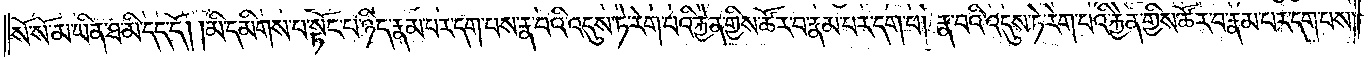སོ་སོ་མ་ཡིན་ཐ་མི་དད་དོ། །མི་དམིགས་པ་སྟོང་པ་ཉིད་རྣམ་པར་དག་པས་རྣ་བའི་འདུས་ཏེ་རེག་པའི་རྐྱེན་གྱིས་ཚོར་བ་རྣམ་པར་དག་པ། རྣ་བའི་འདུས་ཏེ་རེག་པའི་རྐྱེན་གྱིས་ཚོར་བ་རྣམ་པར་དག་པས་
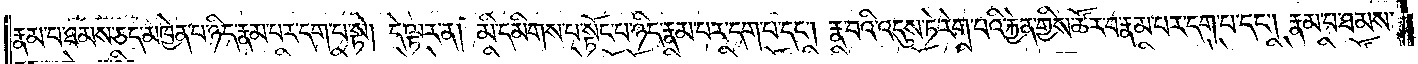རྣམ་པ་ཐམས་ཅད་མཁྱེན་པ་ཉིད་རྣམ་པར་དག་པ་སྟེ། དེ་ལྟར་ན། མི་དམིགས་པ་སྟོང་པ་ཉིད་རྣམ་པར་དག་པ་དང༌། རྣ་བའི་འདུས་ཏེ་རེག་པའི་རྐྱེན་གྱིས་ཚོར་བ་རྣམ་པར་དག་པ་དང༌། རྣམ་པ་ཐམས་
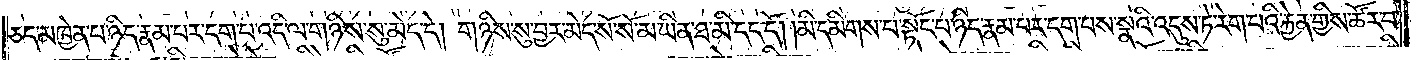ཅད་མཁྱེན་པ་ཉིད་རྣམ་པར་དག་པ་འདི་ལ་གཉིས་སུ་མེད་དེ། གཉིས་སུ་བྱར་མེད་སོ་སོ་མ་ཡིན་ཐ་མི་དད་དོ། །མི་དམིགས་པ་སྟོང་པ་ཉིད་རྣམ་པར་དག་པས་སྣའི་འདུས་ཏེ་རེག་པའི་རྐྱེན་གྱིས་ཚོར་བ་
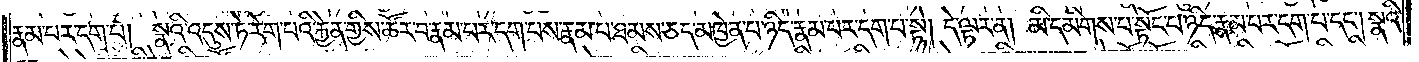རྣམ་པར་དག་པ། སྣའི་འདུས་ཏེ་རེག་པའི་རྐྱེན་གྱིས་ཚོར་བ་རྣམ་པར་དག་པས་རྣམ་པ་ཐམས་ཅད་མཁྱེན་པ་ཉིད་རྣམ་པར་དག་པ་སྟེ། དེ་ལྟར་ན། མི་དམིགས་པ་སྟོང་པ་ཉིད་རྣམ་པར་དག་པ་དང༌། སྣའི་
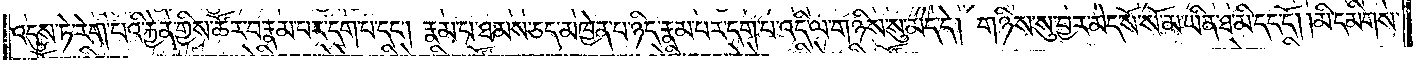འདུས་ཏེ་རེག་པའི་རྐྱེན་གྱིས་ཚོར་བ་རྣམ་པར་དག་པ་དང༌། རྣམ་པ་ཐམས་ཅད་མཁྱེན་པ་ཉིད་རྣམ་པར་དག་པ་འདི་ལ་གཉིས་སུ་མེད་དེ། གཉིས་སུ་བྱར་མེད་སོ་སོ་མ་ཡིན་ཐ་མི་དད་དོ། །མི་དམིགས་
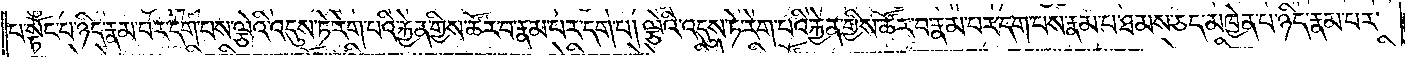པ་སྟོང་པ་ཉིད་རྣམ་པར་དག་པས་ལྕེའི་འདུས་ཏེ་རེག་པའི་རྐྱེན་གྱིས་ཚོར་བ་རྣམ་པར་དག་པ། ལྕེའི་འདུས་ཏེ་རེག་པའི་རྐྱེན་གྱིས་ཚོར་བ་རྣམ་པར་དག་པས་རྣམ་པ་ཐམས་ཅད་མཁྱེན་པ་ཉིད་རྣམ་པར་
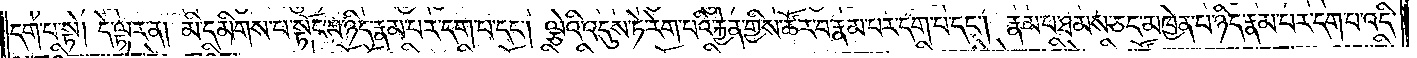དག་པ་སྟེ། དེ་ལྟར་ན། མི་དམིགས་པ་སྟོང་པ་ཉིད་རྣམ་པར་དག་པ་དང༌། ལྕེའི་འདུས་ཏེ་རེག་པའི་རྐྱེན་གྱིས་ཚོར་བ་རྣམ་པར་དག་པ་དང༌། རྣམ་པ་ཐམས་ཅད་མཁྱེན་པ་ཉིད་རྣམ་པར་དག་པ་འདི་
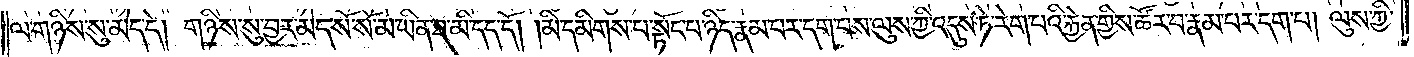ལ་གཉིས་སུ་མེད་དེ། གཉིས་སུ་བྱར་མེད་སོ་སོ་མ་ཡིན་ཐ་མི་དད་དོ། །མི་དམིགས་པ་སྟོང་པ་ཉིད་རྣམ་པར་དག་པས་ལུས་ཀྱི་འདུས་ཏེ་རེག་པའི་རྐྱེན་གྱིས་ཚོར་བ་རྣམ་པར་དག་པ། ལུས་ཀྱི་
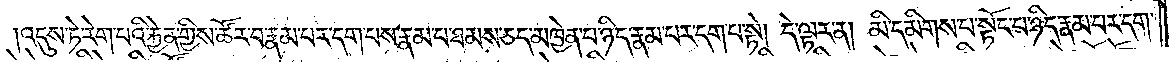འདུས་ཏེ་རེག་པའི་རྐྱེན་གྱིས་ཚོར་བ་རྣམ་པར་དག་པས་རྣམ་པ་ཐམས་ཅད་མཁྱེན་པ་ཉིད་རྣམ་པར་དག་པ་སྟེ། དེ་ལྟར་ན། མི་དམིགས་པ་སྟོང་པ་ཉིད་རྣམ་པར་དག་
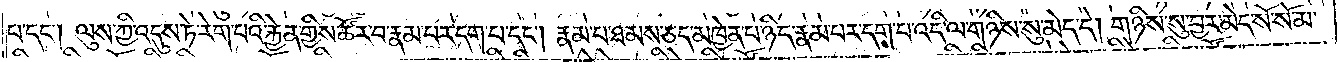པ་དང༌། ལུས་ཀྱི་འདུས་ཏེ་རེག་པའི་རྐྱེན་གྱིས་ཚོར་བ་རྣམ་པར་དག་པ་དང༌། རྣམ་པ་ཐམས་ཅད་མཁྱེན་པ་ཉིད་རྣམ་པར་དག་པ་འདི་ལ་གཉིས་སུ་མེད་དེ། གཉིས་སུ་བྱར་མེད་སོ་སོ་མ་
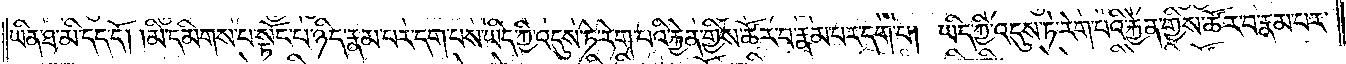ཡིན་ཐ་མིད་དད་དོ། །མི་དམིགས་པ་སྟོང་པ་ཉིད་རྣམ་པར་དག་པས་ཡིད་ཀྱི་འདུས་ཏེ་རེག་པའི་རྐྱེན་གྱིས་ཚོར་བ་རྣམ་པར་དག་པ། ཡིད་ཀྱི་འདུས་ཏེ་རེག་པའི་རྐྱེན་གྱིས་ཚོར་བ་རྣམ་པར་
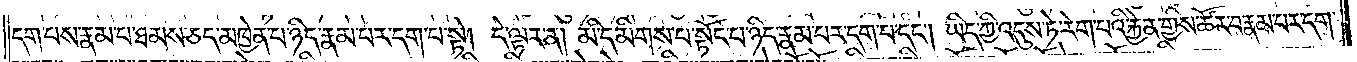དག་པས་རྣམ་པ་ཐམས་ཅད་མཁྱེན་པ་ཉིད་རྣམ་པར་དག་པ་སྟེ། དེ་ལྟར་ན། མི་དམིགས་པ་སྟོང་པ་ཉིད་རྣམ་པར་དག་པ་དང༌། ཡིད་ཀྱི་འདུས་ཏེ་རེག་པའི་རྐྱེན་གྱིས་ཚོར་བ་རྣམ་པར་དག་
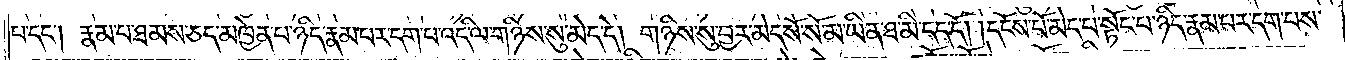པ་དང༌། རྣམ་པ་ཐམས་ཅད་མཁྱེན་པ་ཉིད་རྣམ་པར་དག་པ་འདི་ལ་གཉིས་སུ་མེད་དེ། གཉིས་སུ་བྱར་མེད་སོ་སོ་མ་ཡིན་ཐ་མི་དད་དོ། །དངོས་པོ་མེད་པ་སྟོང་པ་ཉིད་རྣམ་པར་དག་པས་
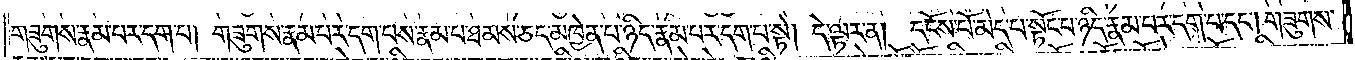གཟུགས་རྣམ་པར་དག་པ། གཟུགས་རྣམ་པར་དག་པས་རྣམ་པ་ཐམས་ཅད་མཁྱེན་པ་ཉིད་རྣམ་པར་དག་པ་སྟེ། དེ་ལྟར་ན། དངོས་པོ་མེད་པ་སྟོང་པ་ཉིད་རྣམ་པར་དག་པ་དང༌། གཟུགས་
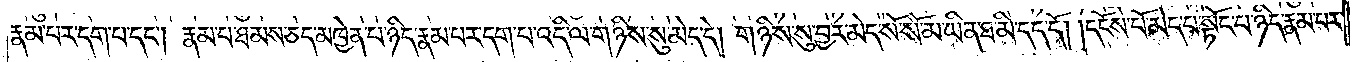རྣམ་པར་དག་པ་དང༌། རྣམ་པ་ཐམས་ཅད་མཁྱེན་པ་ཉིད་རྣམ་པར་དག་པ་འདི་ལ་གཉིས་སུ་མེད་དེ། གཉིས་སུ་བྱར་མེད་སོ་སོ་མ་ཡིན་ཐ་མི་དད་དོ། །དངོས་པོ་མེད་པ་སྟོང་པ་ཉིད་རྣམ་པར་
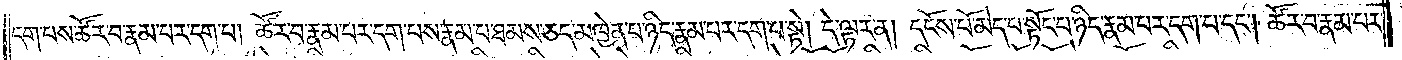དག་པས་ཚོར་བ་རྣམ་པར་དག་པ། ཚོར་བ་རྣམ་པར་དག་པས་རྣམ་པ་ཐམས་ཅད་མཁྱེན་པ་ཉིད་རྣམ་པར་དག་པ་སྟེ། དེ་ལྟར་ན། དངོས་པོ་མེད་པ་སྟོང་པ་ཉིད་རྣམ་པར་དག་པ་དང༌། ཚོར་བ་རྣམ་པར་
